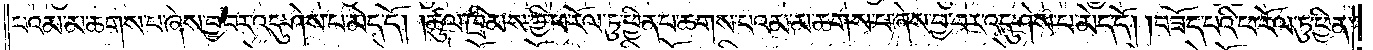པའམ་མ་ཆགས་པ་ཞེས་བྱ་བར་འདུ་ཤེས་པ་མེད་དོ། །ཚུལ་ཁྲིམས་ཀྱི་ཕ་རོལ་ཏུ་ཕྱིན་པ་ཆགས་པའམ་མ་ཆགས་པ་ཞེས་བྱ་བར་འདུ་ཤེས་པ་མེད་དོ། །བཟོད་པའི་ཕ་རོལ་ཏུ་ཕྱིན་
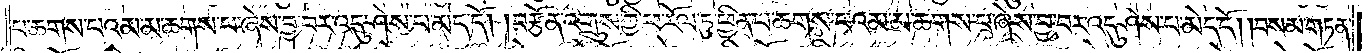པ་ཆགས་པའམ་མ་ཆགས་པ་ཞེས་བྱ་བར་འདུ་ཤེས་པ་མེད་དོ། །བརྩོན་འགྲུས་ཀྱི་ཕ་རོལ་ཏུ་ཕྱིན་པ་ཆགས་པའམ་མ་ཆགས་པ་ཞེས་བྱ་བར་འདུ་ཤེས་པ་མེད་དོ། །བསམ་གཏན་
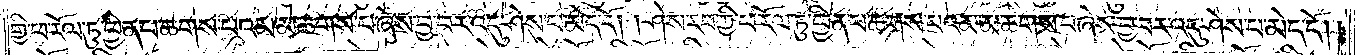གྱི་ཕ་རོལ་ཏུ་ཕྱིན་པ་ཆགས་པའམ་མ་ཆགས་པ་ཞེས་བྱ་བར་འདུ་ཤེས་པ་མེད་དོ། །ཤེས་རབ་ཀྱི་ཕ་རོལ་ཏུ་ཕྱིན་པ་ཆགས་པའམ་མ་ཆགས་པ་ཞེས་བྱ་བར་འདུ་ཤེས་པ་མེད་དོ། །
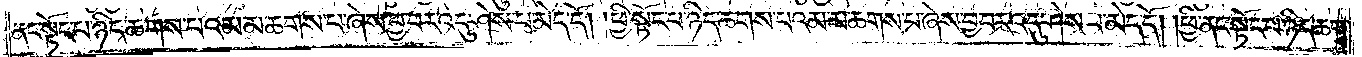ནང་སྟོང་པ་ཉིད་ཆགས་པའམ་མ་ཆགས་པ་ཞེས་བྱ་བར་འདུ་ཤེས་པ་མེད་དོ། །ཕྱི་སྟོང་པ་ཉིད་ཆགས་པའམ་མ་ཆགས་པ་ཞེས་བྱ་བར་འདུ་ཤེས་པ་མེད་དོ། །ཕྱི་ནང་སྟོང་པ་ཉིད་ཆགས་
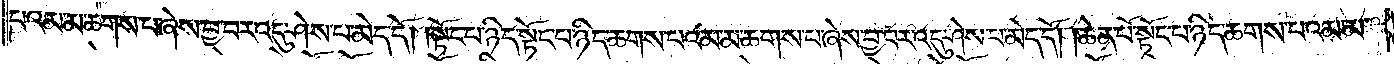པའམ་མ་ཆགས་པ་ཞེས་བྱ་བར་འདུ་ཤེས་པ་མེད་དོ། །སྟོང་པ་ཉིད་སྟོང་པ་ཉིད་ཆགས་པའམ་མ་ཆགས་པ་ཞེས་བྱ་བར་འདུ་ཤེས་པ་མེད་དོ། །ཆེན་པོ་སྟོང་པ་ཉིད་ཆགས་པའམ་མ་
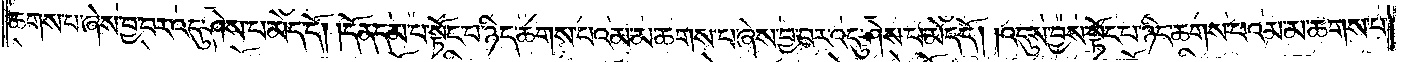ཆགས་པ་ཞེས་བྱ་བར་འདུ་ཤེས་པ་མེད་དོ། །དོན་དམ་པ་སྟོང་པ་ཉིད་ཆགས་པའམ་མ་ཆགས་པ་ཞེས་བྱ་བར་འདུ་ཤེས་པ་མེད་དོ། །འདུས་བྱས་སྟོང་པ་ཉིད་ཆགས་པའམ་མ་ཆགས་པ་
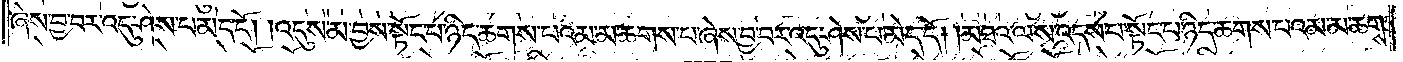ཞེས་བྱ་བར་འདུ་ཤེས་པ་མེད་དོ། །འདུས་མ་བྱས་སྟོང་པ་ཉིད་ཆགས་པའམ་མ་ཆགས་པ་ཞེས་བྱ་བར་འདུ་ཤེས་པ་མེད་དོ། །མཐའ་ལས་འདས་པ་སྟོང་པ་ཉིད་ཆགས་པའམ་མ་ཆགས་
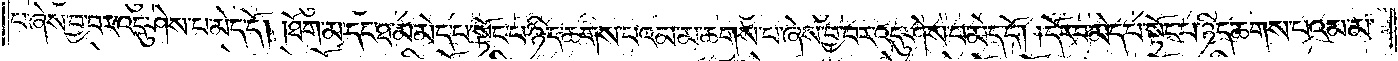པ་ཞེས་བྱ་བར་འདུ་ཤེས་པ་མེད་དོ། །ཐོག་མ་དང་ཐ་མ་མེད་པ་སྟོང་པ་ཉིད་ཆགས་པའམ་མ་ཆགས་པ་ཞེས་བྱ་བར་འདུ་ཤེས་པ་མེད་དོ། །དོར་བ་མེད་པ་སྟོང་པ་ཉིད་ཆགས་པའམ་མ་
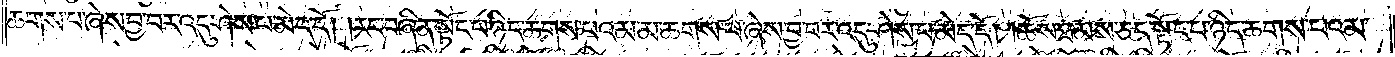ཆགས་པ་ཞེས་བྱ་བར་འདུ་ཤེས་པ་མེད་དོ། །རང་བཞིན་སྟོང་པ་ཉིད་ཆགས་པའམ་མ་ཆགས་པ་ཞེས་བྱ་བར་འདུ་ཤེས་པ་མེད་དོ། །ཆོས་ཐམས་ཅད་སྟོང་པ་ཉིད་ཆགས་པའམ་
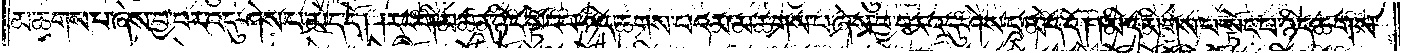མ་ཆགས་པ་ཞེས་བྱ་བར་འདུ་ཤེས་པ་མེད་དོ། །རང་གི་མཚན་ཉིད་སྟོང་པ་ཉིད་ཆགས་པའམ་མ་ཆགས་པ་ཞེས་བྱ་བར་འདུ་ཤེས་པ་མེད་དོ། །མི་དམིགས་པ་སྟོང་པ་ཉིད་ཆགས་
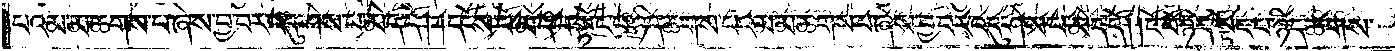པའམ་མ་ཆགས་པ་ཞེས་བྱ་བར་འདུ་ཤེས་པ་མེད་དོ། །དངོས་པོ་མེད་པ་སྟོང་པ་ཉིད་ཆགས་པའམ་མ་ཆགས་པ་ཞེས་བྱ་བར་འདུ་ཤེས་པ་མེད་དོ། །ངོ་བོ་ཉིད་སྟོང་པ་ཉིད་ཆགས་
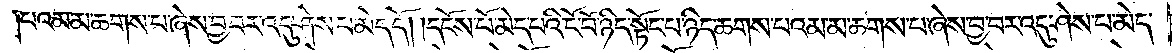པའམ་མ་ཆགས་པ་ཞེས་བྱ་བར་འདུ་ཤེས་པ་མེད་དོ། །དངོས་པོ་མེད་པའི་ངོ་བོ་ཉིད་སྟོང་པ་ཉིད་ཆགས་པའམ་མ་ཆགས་པ་ཞེས་བྱ་བར་འདུ་ཤེས་པ་མེད་
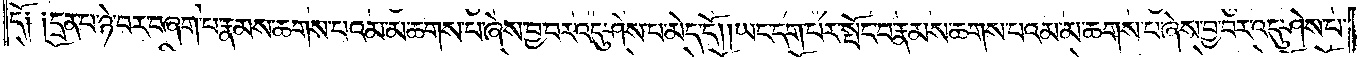དོ༑ ༑དྲན་པ་ཉེ་བར་བཞག་པ་རྣམས་ཆགས་པའམ་མ་ཆགས་པ་ཞེས་བྱ་བར་འདུ་ཤེས་པ་མེད་དོ། །ཡང་དག་པར་སྤོང་བ་རྣམས་ཆགས་པའམ་མ་ཆགས་པ་ཞེས་བྱ་བར་འདུ་ཤེས་པ་
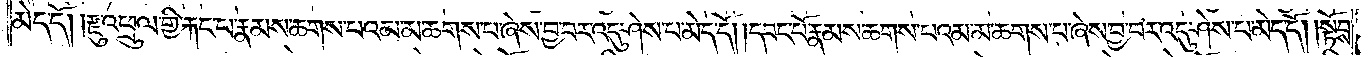མེད་དོ། །རྫུ་འཕྲུལ་གྱི་རྐང་པ་རྣམས་ཆགས་པའམ་མ་ཆགས་པ་ཞེས་བྱ་བར་འདུ་ཤེས་པ་མེད་དོ། །དབང་པོ་རྣམས་ཆགས་པའམ་མ་ཆགས་པ་ཞེས་བྱ་བར་འདུ་ཤེས་པ་མེད་དོ། །སྟོབས་
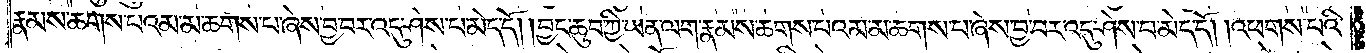རྣམས་ཆགས་པའམ་མ་ཆགས་པ་ཞེས་བྱ་བར་འདུ་ཤེས་པ་མེད་དོ། །བྱང་ཆུབ་ཀྱི་ཡན་ལག་རྣམས་ཆགས་པའམ་མ་ཆགས་པ་ཞེས་བྱ་བར་འདུ་ཤེས་པ་མེད་དོ། །འཕགས་པའི་
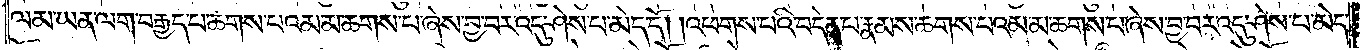ལམ་ཡན་ལག་བརྒྱད་པ་ཆགས་པའམ་མ་ཆགས་པ་ཞེས་བྱ་བར་འདུ་ཤེས་པ་མེད་དོ། །འཕགས་པའི་བདེན་པ་རྣམས་ཆགས་པའམ་མ་ཆགས་པ་ཞེས་བྱ་བར་འདུ་ཤེས་པ་མེད་
